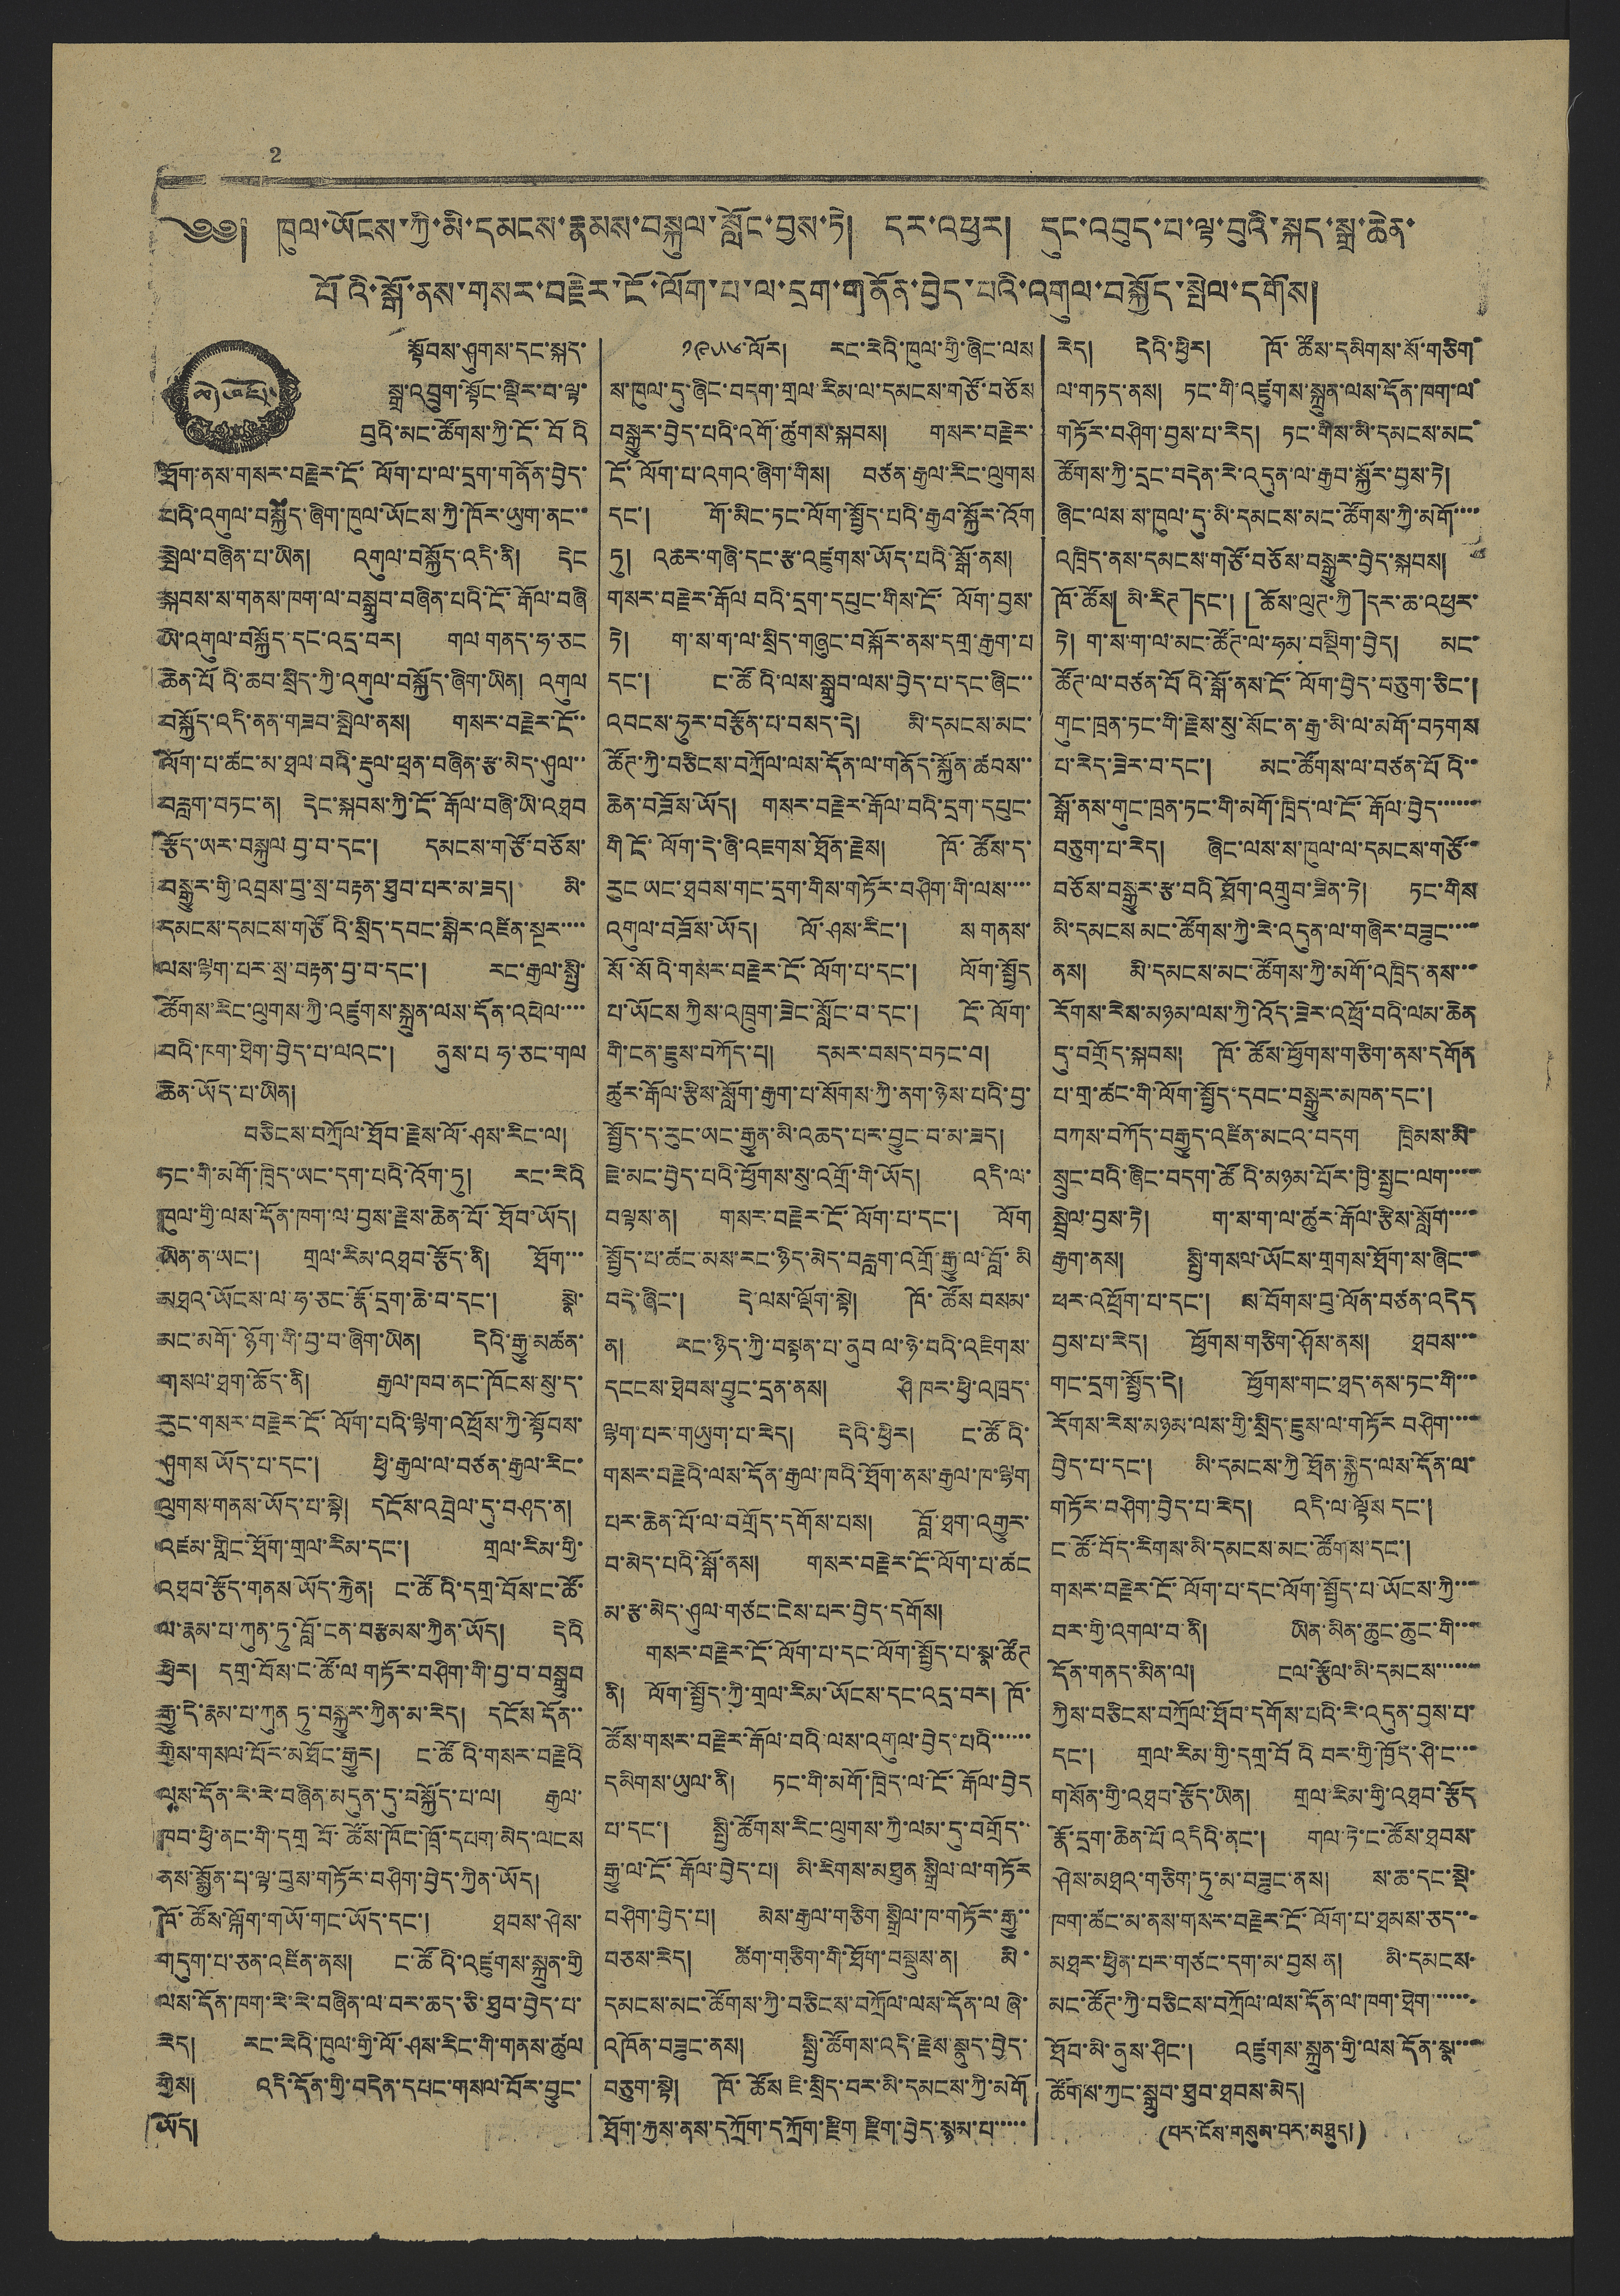2
༄༅། ཁུལ་ཡོངས་ཀྱི་མི་དམངས་རྣམས་བསྐུལ་སློང་བྱས་སྟེ། དར་འཕྱར། དུང་འབུད་པ་ལྟ་བུའི་སྐད་སྒྲ་ཆེན་
པོའི་སྒོ་ནས་གསར་བརྗེར་ངོ་ལོག་པ་ལ་དྲག་གནོན་བྱེད་པའི་འགུལ་བསྐྱོད་སྤེལ་དགོས།
ཆེད་བརྗོད་
སྟོབས་ཤུགས་དང་སྐད་
སྒྲ་འབྲུག་སྟོང་ལྡིར་བ་ལྟ་
བུའི་མང་ཚོགས་ཀྱི་ངོ་བོའི
ཐོག་ནས་གསར་བརྗེར་ངོ་ལོག་པ་ལ་དྲག་གནོན་བྱེད་
པའི་འགུལ་བསྐྱོད་ཞིག་ཁུལ་ཡོངས་ཀྱི་ཁོར་ཡུག་ནང་་
སྤེལ་བཞིན་པ་ཡིན། འགུལ་བསྐྱོད་འདི་ནི། དེང
སྐབས་ས་གནས་ཁག་ལ་བསྒྲུབ་བཞིན་པའི་ངོ་རྒོལ་བཞི
ཡི་འགུལ་བསྐྱོད་དང་འདྲ་བར། གལ གནད་ཧ་ཅང
ཆེན་པོའི་ཆབ་སྲིད་ཀྱི་འགུལ་བསྐྱོད་ཞིག་ཡིན། འགུལ
བསྐྱོད་འདི་ནན་གཟབ་སྤེལ་ནས། གསར་བརྗེར་ངོ་་
ལོག་པ་ཚང་མ་ཐལ་བའི་རྡུལ་ཕྲན་བཞིན་རྩ་མེད་ཤུལ་་
བརླག་བཏང་ན། དེང་སྐབས་ཀྱི་ངོ་རྒོལ་བཞི་ཡི་འཐབ
རྩོད་ཡར་བསྐུལ བྱ་བ་དང་། དམངས་གཙོ་བཅོས་
བསྒྱུར་གྱི་འབྲས་བུ་སྲ་བརྟན་ཐུབ་པར་མ་ཟད། མི་
དམངས་དམངས་གཙོའི་སྲིད་དབང་སྒེར་འཛིན་སྔར་་་་
ལས་ལྷག་པར་སྲ་བརྟན་བྱ་བ་དང་། རང་རྒྱལ་སྤྱི་
ཚོགས་རིང་ལུགས་ཀྱི་འཛུགས་སྐྲུན་ལས་དོན་འཕེལ་་་་
པའི་ཁག་ཐེག་བྱེད་པ་ལའང་། ནུས་པ ཧ་ཅང་གལ
ཆེན་ཡོད་པ་ཡིན།
བཅིངས་བཀྲོལ་ཐོབ་རྗེས་ལོ་ཤས་རིང་ལ།
ཏང་གི་མགོ་ཁྲིད་ཡང་དག་པའི་འོག་ཏུ། རང་རེའི
ཁུལ་གྱི་ལས་དོན་ཁག་ལ་བྱས་རྗེས་ཆེན་པོ་ཐོབ་ཡོད།
ཡིན་ན་ཡང་། གྲལ་རིམ་འཐབ་རྩོད་ནི། ཐོག་་་
མཐའ་ཡོངས་ལ་ཧ་ཅང་རྣོ་དྲག་ཆེ་བ་དང་། སྣེ་
མང་མགོ་ཉོག་གི་བྱ་བ་ཞིག་ཡིན། དེའི་རྒྱུ་མཚན་
གསལ་ཐག་ཆོད་ནི། རྒྱལ་ཁབ་ནང་ཁོངས་སུ་ད་
རུང་གསར་བརྗེར་ངོ་ལོག་པའི་ལྷག་འཕྲོས་ཀྱི་སྟོབས་
ཤུགས ཡོད་པ་དང་། ཕྱི་རྒྱལ་ལ་བཙན་རྒྱལ་རིང་
ལུགས་གནས་ཡོད་པ་སྟེ། དངོས་འབྲེལ་དུ་བཤད་ན།
འཛམ་གླིང་ཐོག་གྲལ་རིམ་དང་། གྲལ་རིམ་གྱི་
འཐབ་རྩོད་གནས་ཡོད་རྐེན། ང་ཚོའི་དགྲ་བོས་ང་ཚོ་
ལ་རྣམ་པ་ཀུན་ཏུ་བློ་ངན་བརྩམས་ཀྱིན་ཡོད། དེའི
ཕྱིར། དགྲ་བོས་ང་ཚོ་ལ གཏོར་བཤིག་གི་བྱ་བ་བསྒྲུབ
རྒྱུ་དེ་རྣམ་པ་ཀུན་ཏུ་བསྐྱུར་ཀྱིན་མ་རེད། དངོས་དོན་་
གྱིས་གསལ་པོར་མཐོང་རྒྱུར། ང་ཚོའི་གསར་བརྗེའི
ལས་དོན་རེ་རེ་བཞིན་མདུན་དུ་བསྐྱོད་པ་ལ། རྒྱལ་
ཁབ་ཕྱི་ནང་གི་དགྲ བོ་ཚོས་ཁོང་ཁྲོ་དཔག་མེད་ལངས
ནས་སྨྱོན་པ་ལྟ་བུས་གཏོར་བཤིག་བྱེད་ཀྱིན་ཡོད།
ཁོ་ཚོས་ལྐོག་གཡོ་གང་ཡོད་དང་། ཐབས་ཤེས་
གདུག་པ་ཅན་འཛིན་ནས། ང་ཚོའི་འཛུགས་སྐྲུན་གྱི
ལས་དོན་ཁག་རེ་རེ་བཞིན་ལ་བར་ཆད་ཅི་ཐབ་བྱེད་པ་
རེད། རང་རེའི་ཁུལ་གྱི་ལོ་ཤས་རིང་གི་གནས་ཚུལ
གྱིས། འདི་དོན་གྱི་བདེན་དཔང་གསལ་པོར་བྱུང་
ཡོད།
༡༩༥༦ ་ལོར། རང་རེའི་ཁུལ་གྱི་ཞིང་ལས
ས་ཁུལ་དུ་ཞིང་བདག་གྲལ་རིམ་ལ་དམངས་གཙོ་བཅོས
བསྒྱུར་བྱེད་པའི་འགོ་ཚུགས་སྐབས། གསར་བརྗེར་
ངོ་ལོག་པ་འགའ་ཞིག་གིས། བཙན་རྒྱལ་རིང་ལུགས
དང་། གོ་མིང་ཏང་ལོག་སྤྱོདཔའི་རྒྱབ་སྐྱོ་ར་འོག
ཏུ། འཆར་གཞི་དང་རྩ་འཛུགས་ཡོད་པའི་སྒོ་ནས།
གསར་བརྗེར་རྒོལ བའི་དྲག་དཔུང་གིས་ངོ་ལོག་བྱས་
ཏེ། ག་ས་ག་ལ་སྲིད་གཞུང་བསྐོར་ནས་དགྲ་རྒྱག་པ
དང་། ང་ཚོའི་ལས་སྒྲུབ་ལས་བྱེད་པ་དང་ཞིང་་
འབངས་ཧུར་བརྩན་པ་བསད་དེ། མི་དམངས་མང་
ཚོཊ་ཀྱི་བཅིངས་བཀྲོལ་ལས་དོན་ལ་གནོད་སྐྱོན་ཚབས་་
ཆེན་བཟོས་ཡོད། གསར་བརྗེར་རྒོལ་བའི་དྲག་དཔུང་
གི ངོ་ལོག་དེ་ཞི་འཇགས་ཐོན་རྗེས། ཁོ་ཚོས་ད་
རུང ཡང་ཐབས་གང་དྲག་གིས་གཏོར་བཤིག་གི་ལས་་་་
འགུལ་བཟོས་ཡོད། ལོ་ཤས་རིང་། ས གནས་
སོ་སོའི་གསར་བརྗེར་ངོ་ལོག་པ་དང་། ལོག་སྤྱོད
པ་ཡོངས ཀྱིས་འཁྲུག་ཟེང་སློང་བ་དང་། ངོ་ལོག་
གི་ངན་ཇུས་བཀོད་པ། དམར་བསད་བཏང་བ།
ཚུར་རྒོལ་རྩིས་སློག་རྒྱག་པ་སོགས་ཀྱི་ནག་ཉེས་པའི་བྱ་
སྤྱོད་ད་རུང་ཡང་རྒྱུན་མི་འཆད་པར་བྱུང་བ་མ་ཟད།
ཇེ་མང་བྱེད་པའི་ཕྱོགས་སུ་འགྲོ་གི་ཡོད། འདི་ལ་
བལྟས་ན། གསར་བརྗེར་ངོ་ལོག་པ་དང་། ལོག
སྤྱོད་པ་ཚང་མས་རང་ཉིད་མེད་བརླག་འགྲོ་རྒྱུ་ལ་བློ་མི
བདེ་ཞིང་། དེ་ལས་ལྡོག་སྟེ། ཁོ་ཚོས་བསམ་
ན། རང་ཉིད་ཀྱི་བསྟན་པ་ནུབ ལ་ཉེ་བའི་འཇིགས་
དངངས་ཐེབས་བྱུང་དྲན་ནས། ཤི ཁར་ཕྱི་འཁྲད་
ལྷག་པར་གཡུག་པ་རེད། དེའི་ཕྱིར། ང་ཚོའི་
གསར་བརྗེའི་ལས་དོན་རྒྱལ་ཁའི་ཐོག་ནས་རྒྱལ་ཁ་ལྷག
པར་ཆེན་པོ་ལ་བགྲོད་དགོས་ལས། བློ་ཐག་འགྱུར་
བ་མེད་པའི་སྒོ་ནས། གསར་བརྗེར་ངོ་ལོག་པ་ཚང
མ་རྩ་མེད་ཤུལ་གཙང་ངེས་པར་བྱེད་དགོས།
གསར་བརྗེར་ངོ་ལོག་པ་དང་ལོག་སྤྱོད་པ་ཚོཊ
ནི། ལོག་སྤྱོད་ཀྱི་གྲལ་རིམ་ཡོངས་དང་འདྲ་བར། ཁོ་
ཚོས་གསར་བརྗེར་རྒོལ་བའི་ལས་འགུལ་བྱེད་པའི་་་་་་
དམིགས་ཡུལ་ནི། ཏང་གི་མགོ་ཁྲིད་ལ་ངོ་རྒོལ་བྱེད
པ་དང་། སྤྱི་ཚོགས་རིང་ལུགས་ཀྱི་ལམ་དུ་བགྲོད་
རྒྱུ་ལ་ངོ་རྒོལ་བྱེད་པ། མི་རིགས་མཐུན སྒྲིལ་ལ་གཏོར
བཤིག་བྱེད་པ། མེས་རྒྱལ་གཅིག་སྒྲིལ་ཁ་གཏོར་རྒྱུ་་
བཅས་རེད། ཚིག་གཅིག་གི་ཐོག་བསྡུས་ན། མི་
དམངས་མང་ཚོགས་ཀྱི་བཅིངས་བཀྲོལ་ལས་དོན་ལ ཞེ་
འཁོན་བཟུང་ནས། སྤྱི་ཚོགས་འདི་རྗེས་སྣུད་བྱེད་
བཅུག་སྟེ། ཁོ་ཚོས་ཇི་སྲིད་བར་མི་དམངས་ཀྱི་མགོ
ཐོག་རྐྱས་ནས་དཀྲོག་དཀྲོག་རྫིག རྫིག་བྱེད་སྙམ་པ་་་་་
རེད། དེའི་ཕྱིར། ཁོ་ཚོས་དམིགས་སོ་གཅིག་
ལ་གཏད་ནས། ཏང་གི་འཛུགས་སྐྲུན་ལས་དོན་ཁག་ལ་
གཏོར་བཤིག་བྱས་པ་རེད། ཏང་གིས་མི་དམངས་མང་
ཚོགས་ཀྱི་དྲང་བདེན་རེ་འདུན་ལ་རྒྱབ་སྐྱོར་བྱས་ཏེ།
ཞིང་ལས་ས་ཁུལ་དུ་མི་དམངས་མང་ཚོགས་ཀྱི་མགོ་་་་
འཁྲིད་ནས་དམངས་གཙོ་བཅོས་བསྒྱུར་བྱེད་སྐབས།
ཁོ་ཚོས「མི་རིཊ」དང་།「ཆོས་ལུཊ་ཀྱི」དར་ཆ་འཕྱར་
ཏེ། ག་ས་ག་ལ་མང་ཚོཊ་ལ་ཧམ་བསྡིག་བྱེད། མང་
ཚོཊ་ལ་བཙན་པོའི་སྒོ་ནས་ངོ་ལོག་བྱེད་བཅུག་ཅིང་།
གུང་ཁྲན་ཏང་གི་རྗེས་སུ་སོང་ན་རྒྱ་མི་ལ་མགོ་བཏགས
པ་རེད་ཟེར་བ་དང་། མང་ཚོགས་ལ་བཙན་པོའི་་
སྒོ་ནས་གུང་ཁྲན་ཏང་གི་མགོ་ཁྲིད་ལ་ངོ་རྒོལ་བྱེད་་་་་་
བཅུག་པ་རེད། ཞིང་ལས་ས་ཁུལ་ལ་དམངས་གཙོ་་
བཅོས་བསྒྱུར་རྩ་བའི ཐོག་འགྲུབ་ཟིན་ཏེ། ཏང་གིས
མི་དམངས མང་ཚོགས་ཀྱི་རེ་འདུན་ལ་གཞིར་བཟུང་་་་
ནས། མི་དམངས་མང་ཚོགས་ཀྱི་མགོ་འཁྲིད་ནས་་་
རོགས་རེས་མཉམ་ལས་ཀྱི་འོད་ཟེར་འཕྲོ་བའི་ལམ་ཆེན
དུ་བགྲོད་སྐབས། ཁོ་ཚོས་ཕྱོགས་གཅིག་ནས་དགོན
པ་གྲ་ཚང་གི་ལོག་སྤྱོད་དབང་བསྒྱུར་མཁན་དང་།
བཀས་བཀོད་བརྒྱུད་འཛིན་མངའ་བདག ཁྲིམས་མི་
སྲུང་བའི་ཞིང་བདག་ཚོའི་མཉམ་པོར་ཁྱི་སྤྱང་ལག་་་་
སྦྲེལ་བྱས་ཏེ། ག་ས་ག་ལ་ཚུར་རྒོལ་རྩིས་སློག་་་་
རྒྱག་ནས། སྤྱི་གསལ་ཡོངས་གྲགས་ཐོག་ས་ཞིང་་
ཕར་འཕྲོག་པ་དང་། ས་བོགས་བུ་ལོན་བཙན་འདེད
བྱས་པ་རེད། ཕྱོགས་གཅིག་ཤོས་ནས། ཐབས་་་
གང་དྲག་སྤྱོད་དེ། ཕྱོགས་གང་ཐད་ནས་ཏང་གི་་་
རོགས་རེས་མཉམ་ལས་གྱི་སྲིད་ཇུས་ལ་གཏོར་བཤིག་་་་
བྱེད་པ་དང་། མི་དམངས་ཀྱི་ཐོན་སྐྱེད་ལས་དོན་ལ་
གཏོར་བཤིག་བྱེད་པ་རེད། འདི་ལ་ལྟོས དང་།
ང་ཚོ་བོད་རིགས་མི་དམངས་མང་ཚོགས་དང་།
གསར་བརྗེར་ངོ་ལོག་པ་དང་ལོག་སྤྱོད་པ་ཡོངས་ཀྱི་་་
བར་གྱི་འགལ་བ་ནི། ཡིན་མིན་ཆུང་ཆུང་གི་་་
དོན་གནད་མིན་ལ། ངལ་རྩོལ་མི་དམངས་་་་་་་
ཀྱིས་བཅིངས་བཀྲོལ་ཐོབ་དགོས་པའི་རེ་འདུན་བྱས་པ་
དང་། གྲལ་རིམ་གྱི་དགྲ་བོའི བར་གྱི་ཁྱོད་ཤི་ང་་་
གསོན་གྱི་འཐབ་རྩོད་ཡིན། གྲལ་རིམ་གྱི་འཐབ་རྩོད
རྣོ་དྲག་ཆེན་པོ་འདིའི་ནང་། གལ་ཏེ་ང་ཚོས་ཐབས་
ཤེས་མཐའ་གཅིག་ཏུ་མ་བཟུང་ནས་། ས་ཆ་དང་སྡེ་
ཁག་ཚང་མ་ནས་གསར་བརྗེར་ངོ་ལོག་པ་ཐམས་ཅད་་་
མཐར་ཕྱིན་པར་གཙང་དག་མ་བྱས་ན། མི་དམངས་
མང་ཚོཊ་ཀྱི་བཅིངས་བཀྲོལ་ལས་དོན་ལ་ཁག་ཐེག་་་་་་
ཐོབ་མི་ནུས་ཤིང་། འཛུགས་སྐྲུན་གྱི་ལས་དོན་སྣ་་་
ཚོགས་ཀྱང་སྒྲུབ་ཐུབ་ཐབས་མེད།
(པར་ངོས་གསུམ་པར་མཐུད།)
